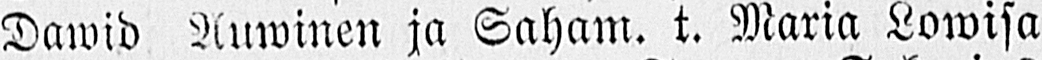Dawid Auwinen ja Saham, t. Maria Lowisa
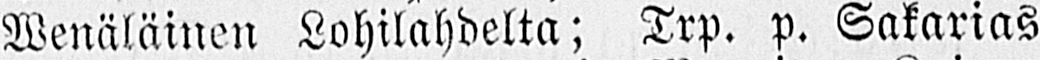Wenäläinen Lohilahdelta; Trp. p. Sakarias
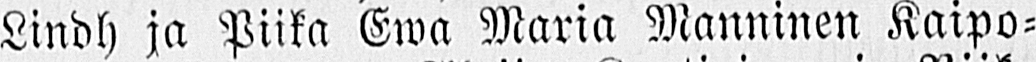Lindh ja Piika Ewa Maria Manninen Kaipo-
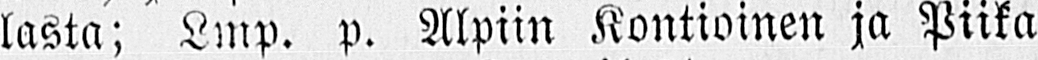lasta; Lmp. p. Alpiin Kontiainen ja Piika
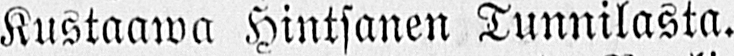Kustaawa Hintsanen Tunnilasta.
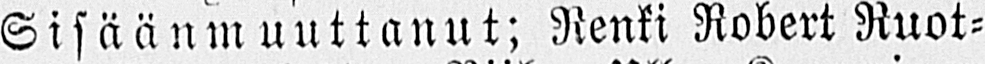Sisäänmuutta nut; Renki Robert Ruot-
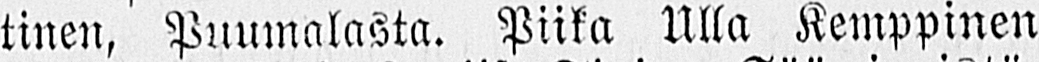tinen, Puumalasta. Piika Ulla Kemppinen
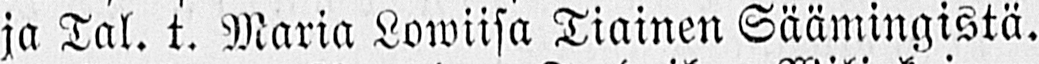ja Tal. t. Maria Lowiisa Tiainen Säämingistä.
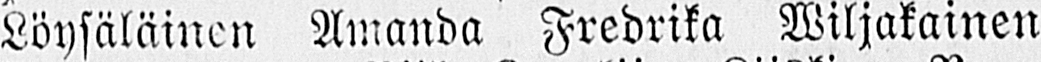Löysäläinen Amanda Fredrika Wiljakainen
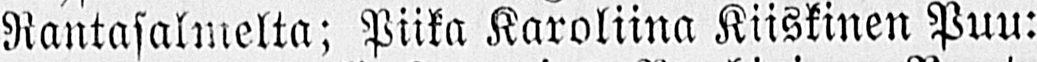Rantasalmelta; Piika Karoliina Kiiskinen Puu:
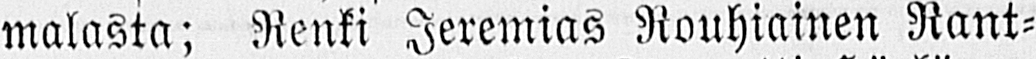malasta; Renki Jeremias Rouhiainen Rant-
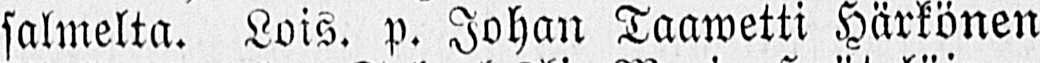salmelta. Lois. p. Johan Taawetti Härkönen
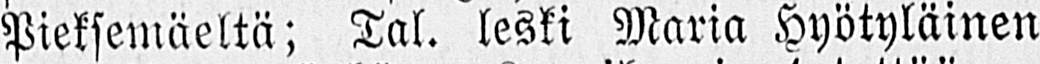Pieksemäeltä; Tal. leski Maria Hyötyläinen
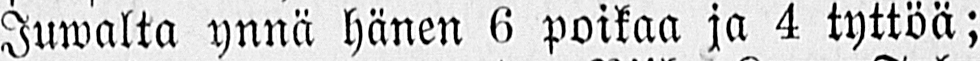Juwalta ynnä hänen 6 poikaa ja 4 tyttöä;
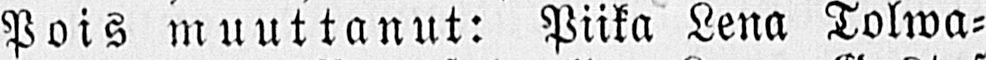Pois muuttanut: Piika Lena Tolwa-
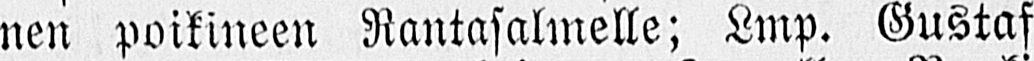nen poikineen Rantasalmelle; Lmp. Gustaf
